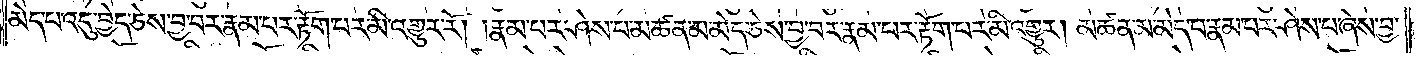མེད་པ་འདུ་བྱེད་ཅེས་བྱ་བར་རྣམ་པར་རྟོག་པར་མི་འགྱུར་རོ། །རྣམ་པར་ཤེས་པ་མཚན་མ་མེད་ཅེས་བྱ་བར་རྣམ་པར་རྟོག་པར་མི་འགྱུར། མཚན་མ་མེད་པ་རྣམ་པར་ཤེས་པ་ཞེས་བྱ་
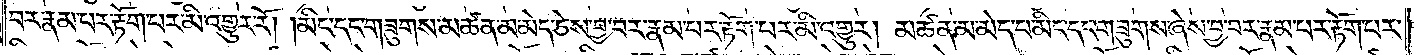བར་རྣམ་པར་རྟོག་པར་མི་འགྱུར་རོ། །མིང་དང་གཟུགས་མཚན་མ་མེད་ཅེས་བྱ་བར་རྣམ་པར་རྟོག་པར་མི་འགྱུར། མཚན་མ་མེད་པ་མིང་དང་གཟུགས་ཞེས་བྱ་བར་རྣམ་པར་རྟོག་པར་
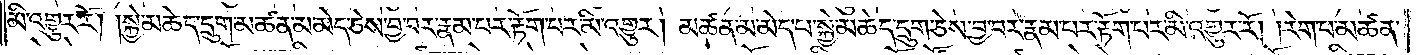མི་འགྱུར་རོ། །སྐྱེ་མཆེད་དྲུག་མཚན་མ་མེད་ཅེས་བྱ་བར་རྣམ་པར་རྟོག་པར་མི་འགྱུར། མཚན་མ་མེད་པ་སྐྱེ་མཆེད་དྲུག་ཅེས་བྱ་བར་རྣམ་པར་རྟོག་པར་མི་འགྱུར་རོ། །རེག་པ་མཚན་
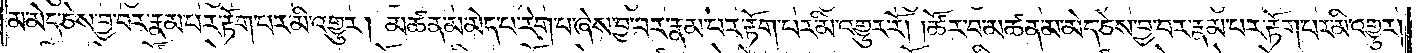མ་མེད་ཅེས་བྱ་བར་རྣམ་པར་རྟོག་པར་མི་འགྱུར། མཚན་མ་མེད་པ་རེག་པ་ཞེས་བྱ་བར་རྣམ་པར་རྟོག་པར་མི་འགྱུར་རོ། །ཚོར་བ་མཚན་མ་མེད་ཅེས་བྱ་བར་རྣམ་པར་རྟོག་པར་མི་འགྱུར།
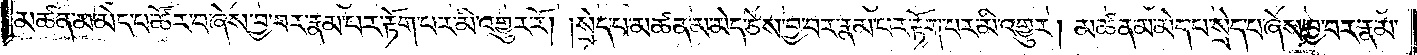མཚན་མ་མེད་པ་ཚོར་བ་ཞེས་བྱ་བར་རྣམ་པར་རྟོག་པར་མི་འགྱུར་རོ། །སྲེད་པ་མཚན་མ་མེད་ཅེས་བྱ་བར་རྣམ་པར་རྟོག་པར་མི་འགྱུར། མཚན་མ་མེད་པ་སྲེད་པ་ཞེས་བྱ་བར་རྣམ་
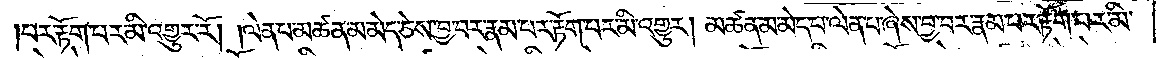པར་རྟོག་པར་མི་འགྱུར་རོ། །ལེན་པ་མཚན་མ་མེད་ཅེས་བྱ་བར་རྣམ་པར་རྟོག་པར་མི་འགྱུར། མཚན་མ་མེད་པ་ལེན་པ་ཞེས་བྱ་བར་རྣམ་པར་རྟོག་པར་མི་
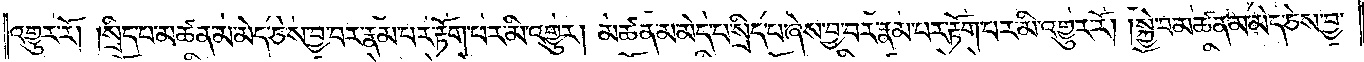འགྱུར་རོ། །སྲིད་པ་མཚན་མ་མེད་ཅེས་བྱ་བར་རྣམ་པར་རྟོག་པར་མི་འགྱུར། མཚན་མ་མེད་པ་སྲིད་པ་ཞེས་བྱ་བར་རྣམ་པར་རྟོག་པར་མི་འགྱུར་རོ། །སྐྱེ་བ་མཚན་མ་མེད་ཅེས་བྱ་
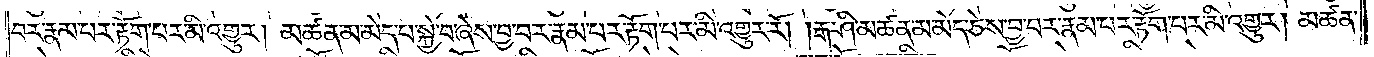བར་རྣམ་པར་རྟོག་པར་མི་འགྱུར། མཚན་མ་མེད་པ་སྐྱེ་བ་ཞེས་བྱ་བར་རྣམ་པར་རྟོག་པར་མི་འགྱུར་རོ། །རྒ་ཤི་མཚན་མ་མེད་ཅེས་བྱ་བར་རྣམ་པར་རྟོག་པར་མི་འགྱུར། མཚན་
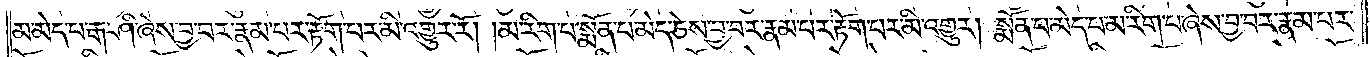མ་མེད་པ་རྒ་ཤི་ཞེས་བྱ་བར་རྣམ་པར་རྟོག་པར་མི་འགྱུར་རོ། །མ་རིག་པ་སྨོན་པ་མེད་ཅེས་བྱ་བར་རྣམ་པར་རྟོག་པར་མི་འགྱུར། སྨོན་པ་མེད་པ་མ་རིག་པ་ཞེས་བྱ་བར་རྣམ་པར་
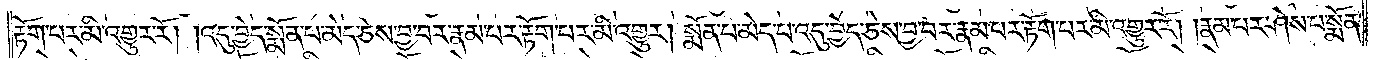རྟོག་པར་མི་འགྱུར་རོ། །འདུ་བྱེད་སྨོན་པ་མེད་ཅེས་བྱ་བར་རྣམ་པར་རྟོག་པར་མི་འགྱུར། སྨོན་པ་མེད་པ་འདུ་བྱེད་ཅེས་བྱ་བར་རྣམ་པར་རྟོག་པར་མི་འགྱུར་རོ། །རྣམ་པར་ཤེས་པ་སྨོན་
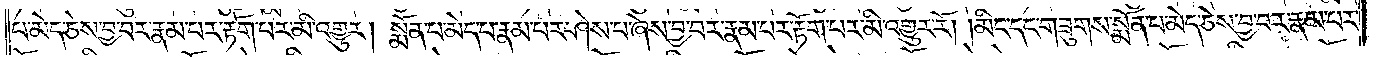པ་མེད་ཅེས་བྱ་བར་རྣམ་པར་རྟོག་པར་མི་འགྱུར། སྨོན་པ་མེད་པ་རྣམ་པར་ཤེས་པ་ཞེས་བྱ་བར་རྣམ་པར་རྟོག་པར་མི་འགྱུར་རོ། །མིང་དང་གཟུགས་སྨོན་པ་མེད་ཅེས་བྱ་བར་རྣམ་པར་
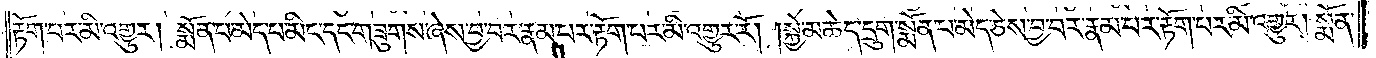རྟོག་པར་མི་འགྱུར། སྨོན་པ་མེད་པ་མིང་དང་གཟུགས་ཞེས་བྱ་བར་རྣམ་པར་རྟོག་པར་མི་འགྱུར་རོ། །སྐྱེ་མཆེད་དྲུག་སྨོན་པ་མེད་ཅེས་བྱ་བར་རྣམ་པར་རྟོག་པར་མི་འགྱུར། སྨོན་
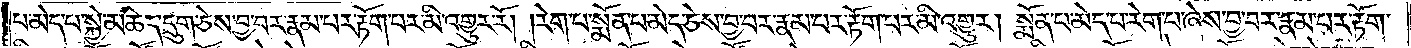པ་མེད་པ་སྐྱེ་མཆེད་དྲུག་ཅེས་བྱ་བར་རྣམ་པར་རྟོག་པར་མི་འགྱུར་རོ། །རེག་པ་སྨོན་པ་མེད་ཅེས་བྱ་བར་རྣམ་པར་རྟོག་པར་མི་འགྱུར། སྨོན་པ་མེད་པ་རེག་པ་ཞེས་བྱ་བར་རྣམ་པར་རྟོག་
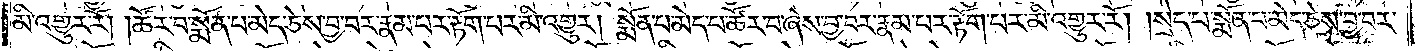མི་འགྱུར་རོ། །ཚོར་བ་སྨོན་པ་མེད་ཅེས་བྱ་བར་རྣམ་པར་རྟོག་པར་མི་འགྱུར། སྨོན་པ་མེད་པ་ཚོར་བ་ཞེས་བྱ་བར་རྣམ་པར་རྟོག་པར་མི་འགྱུར་རོ། །སྲེད་པ་སྨོན་པ་མེད་ཅེས་བྱ་བར་
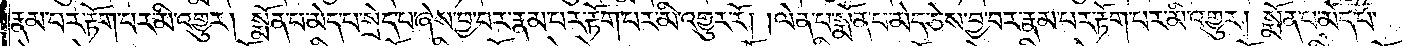རྣམ་པར་རྟོག་པར་མི་འགྱུར། སྨོན་པ་མེད་པ་སྲེད་པ་ཞེས་བྱ་བར་རྣམ་པར་རྟོག་པར་མི་འགྱུར་རོ། །ལེན་པ་སྨོན་པ་མེད་ཅེས་བྱ་བར་རྣམ་པར་རྟོག་པར་མི་འགྱུར། སྨོན་པ་མེད་པ་
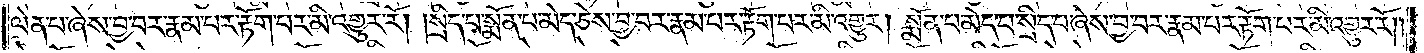ལེན་པ་ཞེས་བྱ་བར་རྣམ་པར་རྟོག་པར་མི་འགྱུར་རོ། །སྲིད་པ་སྨོན་པ་མེད་ཅེས་བྱ་བར་རྣམ་པར་རྟོག་པར་མི་འགྱུར། སྨོན་པ་མེད་པ་སྲིད་པ་ཞེས་བྱ་བར་རྣམ་པར་རྟོག་པར་མི་འགྱུར་རོ། །
